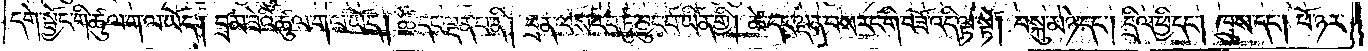དགེ་སྦྱོང་གི་ཚུལ་ག་ལ་ཡོད། བྲམ་ཟེའི་ཚུལ་ག་ལ་ཡོད། ཚེ་དང་ལྡན་པ་ནི། བྲན་ལས་རབ་ཏུ་བྱུང་བ་ཡིན་གྱི། ཚེ་དང་ལྡན་པས་རང་གི་བཟོ་འདི་ལྟ་སྟེ། བསྐུ་མ་ཉེ་དང༌། དྲིལ་ཕྱི་དང༌། ཁྲུས་དང༌། ཕོ་ཉར་
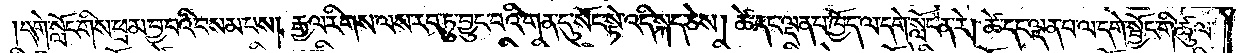དགེ་སློང་གིས་ཕྲ་མ་བྱ་བའི་བསམ་པས། རྒྱལ་རིགས་ལས་རབ་ཏུ་བྱུང་བའི་གན་དུ་སོང་སྟེ་འདི་སྐད་ཅེས། ཚེ་དང་ལྡན་པ་ཁྱོད་ལ་དགེ་སློང་ན་རེ། ཚེ་དང་ལྡན་པ་ལ་དགེ་སྦྱོང་གི་ཚུལ་
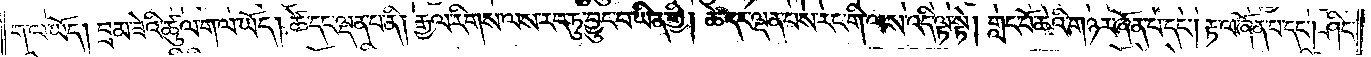ག་ལ་ཡོད། བྲམ་ཟེའི་ཚུལ་ག་ལ་ཡོད། ཚེ་དང་ལྡན་པ་ནི། རྒྱལ་རིགས་ལས་རབ་ཏུ་བྱུང་བ་ཡིན་གྱི། ཚེ་དང་ལྡན་པས་རང་གི་ལས་འདི་ལྟ་སྟེ། གླང་པོ་ཆེའི་གཉར་ཞོན་པ་དང༌། རྟ་ལ་ཞོན་པ་དང༌། ཤིང་
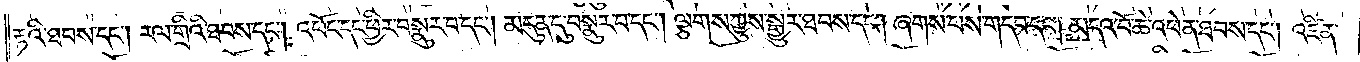རྟའི་ཐབས་དང༌། རལ་གྲིའི་ཐབས་དང༌། འཕོང་དང་ཕྱིར་བསྣུར་བ་དང༌། མདུན་དུ་བསྣུར་བ་དང༌། ལྕགས་ཀྱུས་སྒྱུར་ཐབས་དང༌། ཞགས་པས་གདབ་དང༌། མདའ་བོ་ཆེ་འཕེན་ཐབས་དང༌། འཛིན་
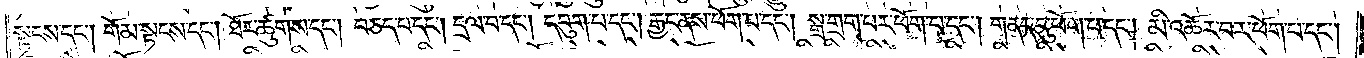སྟངས་དང༌། གོམ་སྟངས་དང༌། ཐོར་ཚུགས་དང༌། བཅད་པ་དང༌། དྲལ་བ་དང༌། དབུག་པ་དང༌། རྒྱང་ནས་ཕོག་པ་དང༌། སྒྲ་གྲག་པར་ཕོག་པ་དང༌། གནད་དུ་ཕོག་པ་དང༌། མི་འཆོར་བར་ཕོག་པ་དང༌།
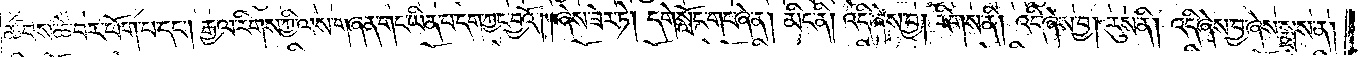ཚབས་ཆེ་བར་ཕོག་པ་དང༌། རྒྱལ་རིགས་ཀྱི་ལས་གཞན་གང་ཡིན་པ་དག་ཀྱང་བྱའོ། །ཞེས་ཟེར་ཏེ། དགེ་སློང་གང་ཞེ་ན། མིང་ནི། འདི་ཞེས་བྱ། རིགས་ནི། འདི་ཞེས་བྱ། རུས་ནི། འདི་ཞེས་བྱ་ཞེས་སྨྲས་ན།
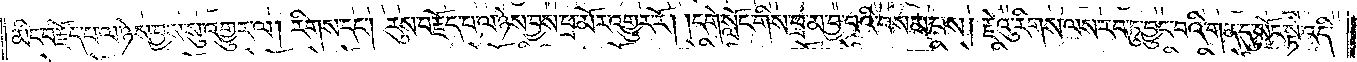མིང་བརྗོད་པ་ལ་ཉེས་བྱས་སུ་འགྱུར་ལ། རིགས་དང༌། རུས་བརྗོད་པ་ལ་ཉེས་བྱས་ཕྲ་མོར་འགྱུར་རོ། །དགེ་སློང་གིས་ཕྲ་མ་བྱ་བའི་བསམ་པས། རྗེའུ་རིགས་ལས་རབ་ཏུ་བྱུང་བའི་གན་དུ་སོང་སྟེ་འདི་
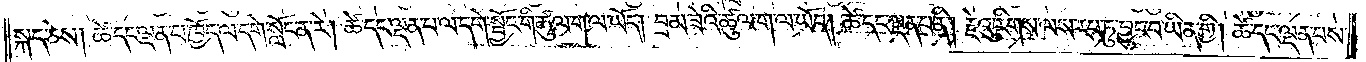སྐད་ཅེས། ཚེ་དང་ལྡན་པ་ཁྱོད་ལ་དགེ་སློང་ན་རེ། ཚེ་དང་ལྡན་པ་ལ་དགེ་སྦྱོང་གི་ཚུལ་ག་ལ་ཡོད། བྲམ་ཟེའི་ཚུལ་ག་ལ་ཡོད། ཚེ་དང་ལྡན་པ་ནི། རྗེའུ་རིགས་ལས་རབ་ཏུ་བྱུང་བ་ཡིན་གྱི། ཚེ་དང་ལྡན་པས་
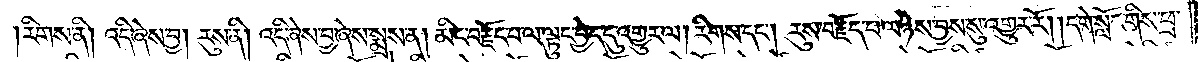རིགས་ནི། འདི་ཞེས་བྱ། རུས་ནི། འདི་ཞེས་བྱ་ཞེས་སྨྲས་ན། མིང་བརྗོད་པ་ལ་ལྟུང་བྱེད་དུ་འགྱུར་ལ། རིགས་དང༌། རུས་བརྗོད་པ་ལ་ཉེས་བྱས་སུ་འགྱུར་རོ། །དགེ་སློང་གིས་ཕྲ་
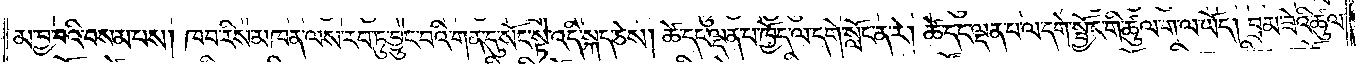མ་བྱ་བའི་བསམ་པས། ཁབ་རིས་མཁན་ལས་རབ་ཏུ་བྱུང་བའི་གན་དུ་སོང་སྟེ་འདི་སྐད་ཅེས། ཚེ་དང་ལྡན་པ་ཁྱོད་ལ་དགེ་སློང་ན་རེ། ཚེ་དང་ལྡན་པ་ལ་དགེ་སྦྱོང་གི་ཚུལ་ག་ལ་ཡོད། བྲམ་ཟེའི་ཚུལ་
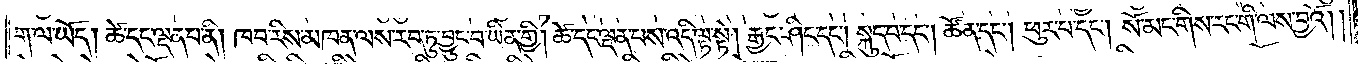ག་ལ་ཡོད། ཚེ་དང་ལྡན་པ་ནི། ཁབ་རིས་མཁན་ལས་རབ་ཏུ་བྱུང་བ་ཡིན་གྱི། ཚེ་དང་ལྡན་པས་འདི་ལྟ་སྟེ། རྒྱང་ཤིང་དང༌། སྐུད་པ་དང༌། ཚོན་དང༌། ཕུར་པ་དང༌། སོ་མང་གིས་རང་གི་ལས་བྱའོ། །
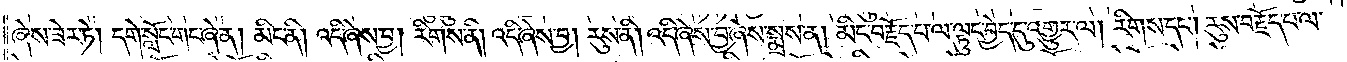ཞེས་ཟེར་ཏེ། དགེ་སློང་གང་ཞེ་ན། མིང་ནི། འདི་ཞེས་བྱ། རིགས་ནི། འདི་ཞེས་བྱ། རུས་ནི། འདི་ཞེས་བྱ་ཞེས་སྨྲས་ན། མི་བརྗོད་པ་ལ་ལྟུང་བྱེད་དུ་འགྱུར་ལ། རིགས་དང༌། རུས་བརྗོད་པ་ལ་
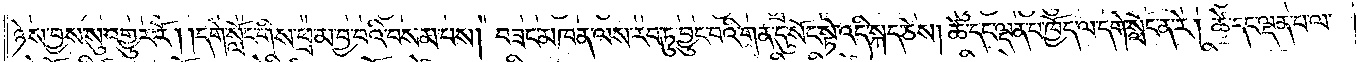ཉེས་བྱས་སུ་འགྱུར་རོ། །དགེ་སློང་གིས་ཕྲ་མ་བྱ་བའི་བསམ་པས། བཟང་མཁན་ལས་རབ་ཏུ་བྱུང་བའི་གན་དུ་སོང་སྟེ་འདི་སྐད་ཅེས། ཚེ་དང་ལྡན་པ་ཁྱོད་ལ་དགེ་སློང་ན་རེ། ཚེ་དང་ལྡན་པ་ལ་
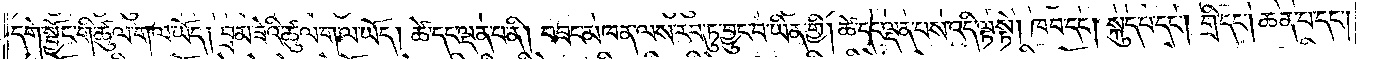དགེ་སྦྱོང་གི་ཚུལ་ག་ལ་ཡོད། བྲམ་ཟེའི་ཚུལ་ག་ལ་ཡོད། ཚེ་དང་ལྡན་པ་ནི། བཟང་མཁན་ལས་རབ་ཏུ་བྱུང་བ་ཡིན་གྱི། ཚེ་དང་ལྡན་པས་འདི་ལྟ་སྟེ། ཁབ་དང༌། སྐུད་པ་དང༌། གྲི་དང༌། ཆན་པ་དང༌།
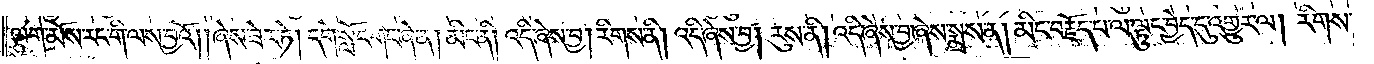ལྕུག་མོས་རང་གི་ལས་བྱའོ། །ཞེས་ཟེར་ཏེ། དགེ་སློང་གང་ཞེ་ན། མིང་ནི། འདི་ཞེས་བྱ། རིགས་ནི། འདི་ཞེས་བྱ། རུས་ནི། འདི་ཞེས་བྱ་ཞེས་སྨྲས་ན། མིང་བརྗོད་པ་ལ་ལྟུང་བྱེད་དུ་འགྱུར་ལ། རིགས་
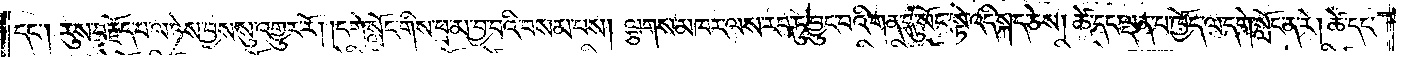དང༌། རུས་བརྗོད་པ་ལ་ཉེས་བྱས་སུ་འགྱུར་རོ། །དགེ་སློང་གིས་ཕྲ་མ་བྱ་བའི་བསམ་པས། ལྕགས་མཁར་ལས་རབ་ཏུ་བྱུང་བའི་གན་དུ་སོང་སྟེ་འདི་སྐད་ཅེས། ཚེ་དང་ལྡན་པ་ཁྱོད་ལ་དགེ་སློང་ན་རེ། ཚེ་དང་
